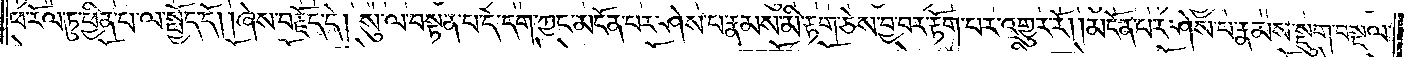ཕ་རོལ་ཏུ་ཕྱིན་པ་ལ་སྤྱོད་དོ། །ཞེས་བརྗོད་དེ། སུ་ལ་བསྟན་པ་དེ་དག་ཀྱང་མངོན་པར་ཤེས་པ་རྣམས་མི་རྟག་ཅེས་བྱ་བར་རྟོག་པར་འགྱུར་རོ། །མངོན་པར་ཤེས་པ་རྣམས་སྡུག་བསྔལ་
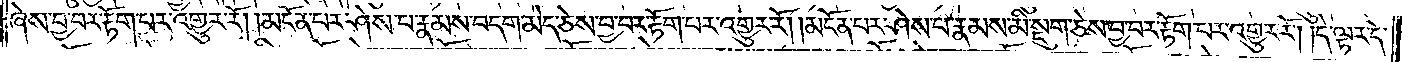ཞེས་བྱ་བར་རྟོག་པར་འགྱུར་རོ། །མངོན་པར་ཤེས་པ་རྣམས་བདག་མེད་ཅེས་བྱ་བར་རྟོག་པར་འགྱུར་རོ། །མངོན་པར་ཤེས་པ་རྣམས་མི་སྡུག་ཅེས་བྱ་བར་རྟོག་པར་འགྱུར་རོ། །དེ་ལྟར་དེ་
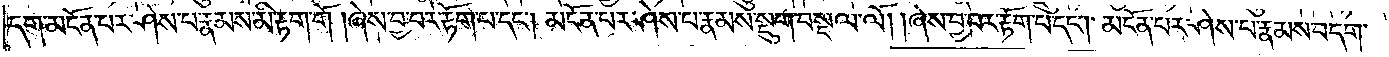དག་མངོན་པར་ཤེས་པ་རྣམས་མི་རྟག་གོ །ཞེས་བྱ་བར་རྟོག་པ་དང༌། མངོན་པར་ཤེས་པ་རྣམས་སྡུག་བསྔལ་ལོ། །ཞེས་བྱ་བར་རྟོག་པ་དང༌། མངོན་པར་ཤེས་པ་རྣམས་བདག་
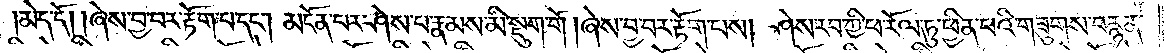མེད་དོ། །ཞེས་བྱ་བར་རྟོག་པ་དང༌། མངོན་པར་ཤེས་པ་རྣམས་མི་སྡུག་གོ །ཞེས་བྱ་བར་རྟོག་པས། ཤེས་རབ་ཀྱི་ཕ་རོལ་ཏུ་ཕྱིན་པའི་གཟུགས་བརྙན་
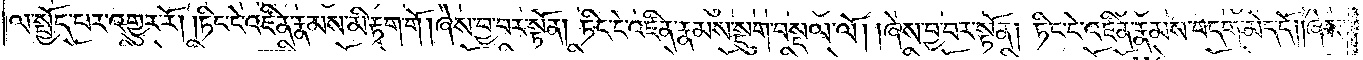ལ་སྤྱོད་པར་འགྱུར་རོ། །ཏིང་ངེ་འཛིན་རྣམས་མི་རྟག་གོ །ཞེས་བྱ་བར་སྟོན། ཏིང་ངེ་འཛིན་རྣམས་སྡུག་བསྔལ་ལོ། །ཞེས་བྱ་བར་སྟོན། ཏིང་ངེ་འཛིན་རྣམས་བདག་མེད་དོ། །ཞེས་
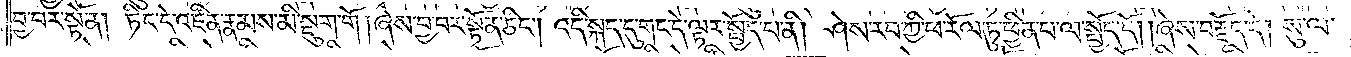བྱ་བར་སྟོན། ཏིང་ངེ་འཛིན་རྣམས་མི་སྡུག་གོ །ཞེས་བྱ་བར་སྟོན་ཅིང༌། འདི་སྐད་དུ་གང་དེ་ལྟར་སྤྱོད་པ་ནི། ཤེས་རབ་ཀྱི་ཕ་རོལ་ཏུ་ཕྱིན་པ་ལ་སྤྱོད་དོ། །ཞེས་བརྗོད་དེ། སུ་ལ་
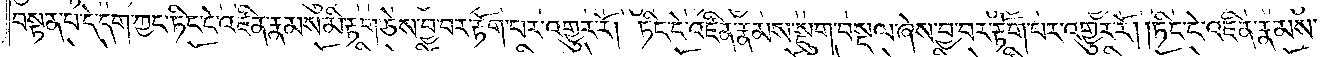བསྟན་པ་དེ་དག་ཀྱང་ཏིང་ངེ་འཛིན་རྣམས་མི་རྟག་ཅེས་བྱ་བར་རྟོག་པར་འགྱུར་རོ། །ཏིང་ངེ་འཛིན་རྣམས་སྡུག་བསྔལ་ཞེས་བྱ་བར་རྟོག་པར་འགྱུར་རོ། །ཏིང་ངེ་འཛིན་རྣམས་
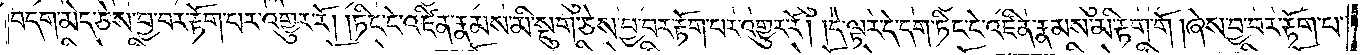བདག་མེད་ཅེས་བྱ་བར་རྟོག་པར་འགྱུར་རོ། །ཏིང་ངེ་འཛིན་རྣམས་མི་སྡུག་ཅེས་བྱ་བར་རྟོག་པར་འགྱུར་རོ། །དེ་ལྟར་དེ་དག་ཏིང་ངེ་འཛིན་རྣམས་མི་རྟག་གོ །ཞེས་བྱ་བར་རྟོག་པ་
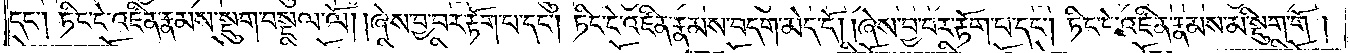དང༌། ཏིང་ངེ་འཛིན་རྣམས་སྡུག་བསྔལ་ལོ། །ཞེས་བྱ་བར་རྟོག་པ་དང༌། ཏིང་ངེ་འཛིན་རྣམས་བདག་མེད་དོ། །ཞེས་བྱ་བར་རྟོག་པ་དང༌། ཏིང་ངེ་འཛིན་རྣམས་མི་སྡུག་གོ།
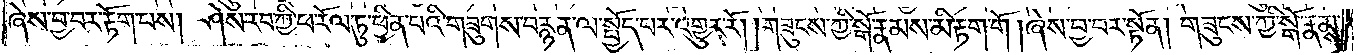ཞེས་བྱ་བར་རྟོག་པས། ཤེས་རབ་ཀྱི་ཕ་རོལ་ཏུ་ཕྱིན་པའི་གཟུགས་བརྙན་ལ་སྤྱོད་པར་འགྱུར་རོ། །གཟུངས་ཀྱི་སྒོ་རྣམས་མི་རྟག་གོ །ཞེས་བྱ་བར་སྟོན། གཟུངས་ཀྱི་སྒོ་རྣམས་
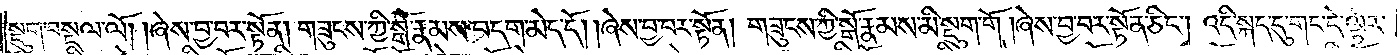སྡུག་བསྔལ་ལོ། །ཞེས་བྱ་བར་སྟོན། གཟུངས་ཀྱི་སྒོ་རྣམས་བདག་མེད་དོ། །ཞེས་བྱ་བར་སྟོན། གཟུངས་ཀྱི་སྒོ་རྣམས་མི་སྡུག་གོ། ཞེས་བྱ་བར་སྟོན་ཅིང༌། འདི་སྐད་དུ་གང་དེ་ལྟར་
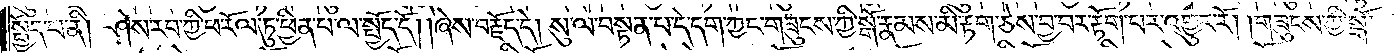སྤྱོད་པ་ནི། ཤེས་རབ་ཀྱི་ཕ་རོལ་ཏུ་ཕྱིན་པ་ལ་སྤྱོད་དོ། །ཞེས་བརྗོད་དེ། སུ་ལ་བསྟན་པ་དེ་དག་ཀྱང་གཟུངས་ཀྱི་སྒོ་རྣམས་མི་རྟག་ཅེས་བྱ་བར་རྟོག་པར་འགྱུར་རོ། །གཟུངས་ཀྱི་སྒོ་
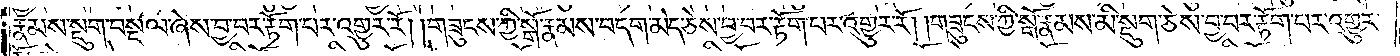རྣམས་སྡུག་བསྔལ་ཞེས་བྱ་བར་རྟོག་པར་འགྱུར་རོ། །གཟུངས་ཀྱི་སྒོ་རྣམས་བདག་མེད་ཅེས་བྱ་བར་རྟོག་པར་འགྱུར་རོ། །གཟུངས་ཀྱི་སྒོ་རྣམས་མི་སྡུག་ཅེས་བྱ་བར་རྟོག་པར་འགྱུར་
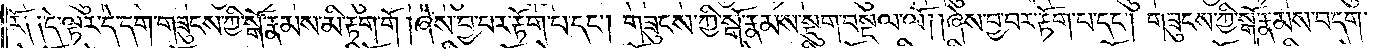རོ༑ ༑དེ་ལྟར་དེ་དག་གཟུངས་ཀྱི་སྒོ་རྣམས་མི་རྟག་གོ། ཞེས་བྱ་བར་རྟོག་པ་དང༌། གཟུངས་ཀྱི་སྒོ་རྣམས་སྡུག་བསྔལ་ལོ། །ཞེས་བྱ་བར་རྟོག་པ་དང༌། གཟུངས་ཀྱི་སྒོ་རྣམས་བདག་
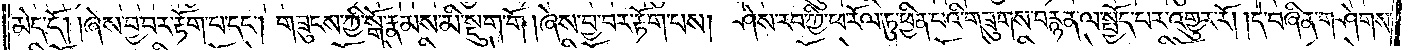མེད་དོ། །ཞེས་བྱ་བར་རྟོག་པ་དང༌། གཟུངས་ཀྱི་སྒོ་རྣམས་མི་སྡུག་གོ །ཞེས་བྱ་བར་རྟོག་པས། ཤེས་རབ་ཀྱི་ཕ་རོལ་ཏུ་ཕྱིན་པའི་གཟུགས་བརྙན་ལ་སྤྱོད་པར་འགྱུར་རོ། །དེ་བཞིན་གཤེགས་
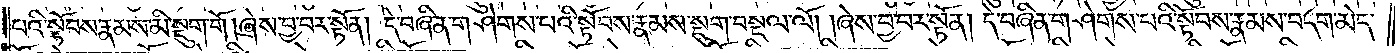པའི་སྟོབས་རྣམས་མི་སྡུག་གོ །ཞེས་བྱ་བར་སྟོན། དེ་བཞིན་གཤེགས་པའི་སྟོབས་རྣམས་སྡུག་བསྔལ་ལོ། །ཞེས་བྱ་བར་སྟོན། དེ་བཞིན་གཤེགས་པའི་སྟོབས་རྣམས་བདག་མེད་
